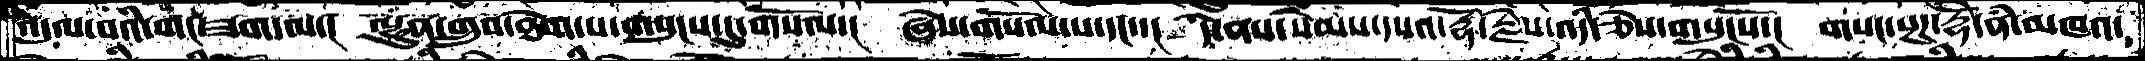འདུལ་བའི་གང་ཟག་ལ་།  ལྷུན་གྲུབ་ཐེག་པ་གསུངས་དུ་གསོལ་།  ཞེས་གསོལ་པ་དང་།  དེ་ནས་སེམས་དཔའ་རྡོ་རྗེས་འདི་ཅེས་གསུངསསོ་།  གསང་སྔཌ་རྡོེ་ནཾ་མཁའ་
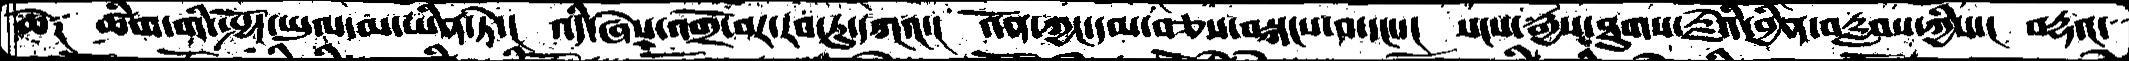ཆེ༑  ཚིག་གི་སྤྱོད་ཡུལ་མ་ཡིན་ཏེ་།  འདི་ཞེས་འགྲོ་བར་རབ་ཏུ་དཀའ་།  འོན་ཀྱང་དམ་བཅས་བསྐངས་པ་དང་་།  སངས་རྒྱས་ཐུགས་རྗེའི་བྱིན་བརླབས་ཀྱིས་།  བརྡའ་
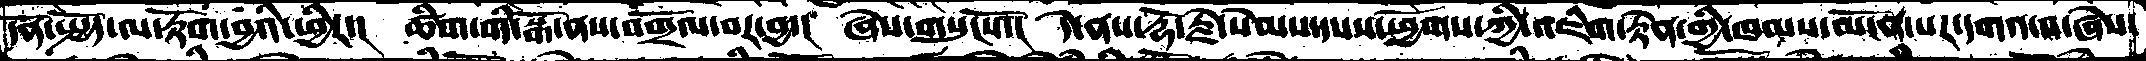དོན་སྤྱོད་ལ་རྟོག་བྱའི་ཕྱིར་།  ཚིག་གི་སྒོ་ནས་བགྲོལ་བར་བྱ་།  ཞེས་གསུངསོ་།  དེ་ནས་རྡོ་རྗེ་སེམས་དཔས་ཕྱོགས་ཀྱི་འཇིག་རྟེན་གྱི་ཁམས་མངོན་པར་དགའ་བ་ཞེས་
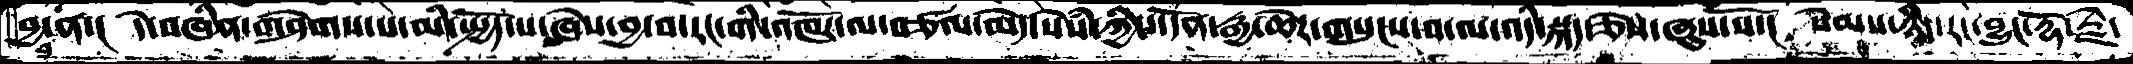བྱ་ན་།  དེ་བཞིན་གཤེགས་པ་མི་སྤྱོད་པ་ཞེས་བྱ་བ་རང་གི་འཁོར་ལ་བཙལ་མེད་སེཾམ་ཀྱིས་དོན་རྒྱ་ཆེར་གསུངས་བ་ལ་འདི་སྐད་ཅེས་ཞུས་སོ་།  སེམས་ཉིད་རང་བྱུང་རྡོ་རྗེ་
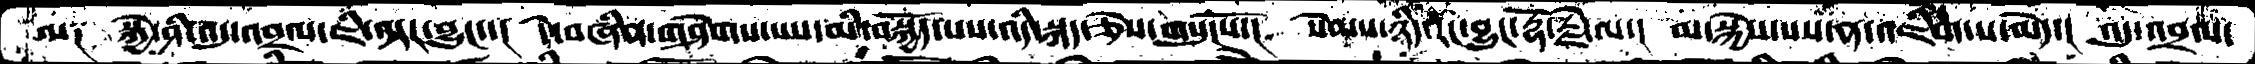ལ༑  སྐྱེ་ཤི་འདུ་འབྲལ་ཇི་ལྟར་འབྱུང་་།  དེ་བཞིན་གཤེགས་པས་མི་བསྐྱོད་པས་འདི་སྐད་ཅེས་གསུངསོ་།  སེམས་ཉིད་རང་བྱུང་རྡོ་རྗེ་ལ་།  མ་སྐྱེས་པས་ན་འཇིག་པ་མེད་།  འདུ་འབྲལ་
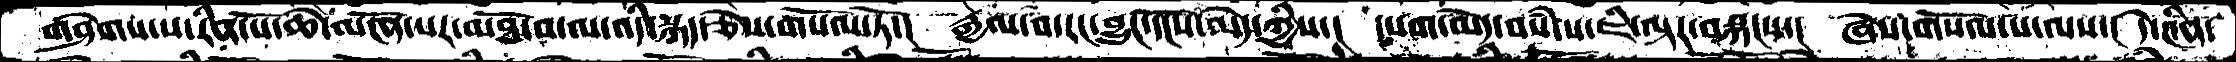གཤེགས་པ་རིན་པོ་ཆེ་མངོན་པར་མཐོ་བ་ལ་འདི་སྐད་ཅེས་གསོལ་ཏོ་།  རྒྱལ་བ་རང་བྱུང་དངོས་མེད་ཀྱིས་།  དཔག་མེད་བསཾ་པ་ཇི་ལྟར་བསྐངས་།  ཞེས་གསོལ་པ་ལས་།  དེ་༤ིན་
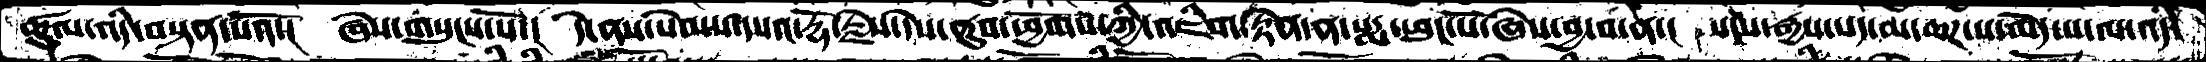ཚུལ་འདི་བསྟན་པའོ་།  ཞེས་གསུངས་སོ་།  དེ་ནས་སེམས་དཔའ་རྡོ་རྗེས་དེས་ནུབ་ཕྱོགས་ཀྱི་འཇིག་རྟེན་ན་པདྨ་ཕུང་པོ་ཞེས་བྱ་བ་ན་།  སངས་རྒྱས་པད་མ་ཆཌ་པ་མེད་པ་ལ་འདི་
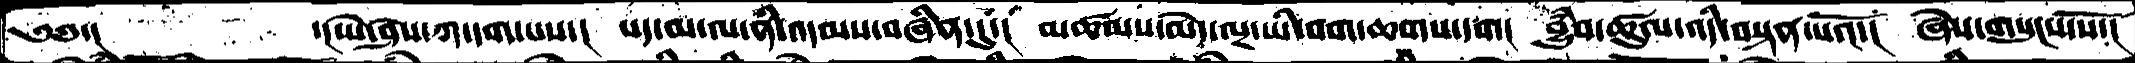༄༅་།       ་།ཡེ་ཤེས་ཀ་དག་པས་།  པད་མ་ལ་ནི་འདམས་བཞིན་དུ་།  མཚམས་མེད་ལྔ་ཡི་བག་ཆགས་དག།  བྱུཾབ་ཚུལ་འདི་བསྟན་པའོ་།  ཞེས་གསུངས་སོ་།
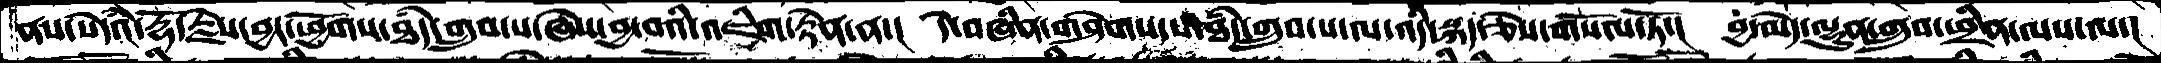ནས་སེདཾའ་རྡོ་རྗེ་བྱང་ཕྱོགས་ཐཾད་གྲུབ་པ་ཞེས་བྱ་བའི་འཇིག་རྟེན་ན་།  དེ་བཞིན་གཤེགས་པ་ཐཾད་གྲུབ་པ་ལ་འདི་སྐད་ཅེས་གསོལ་ཏོ་།  བྱ་མེད་ལྷུན་གྲུབ་ཕྲིན་ལས་ལ་།
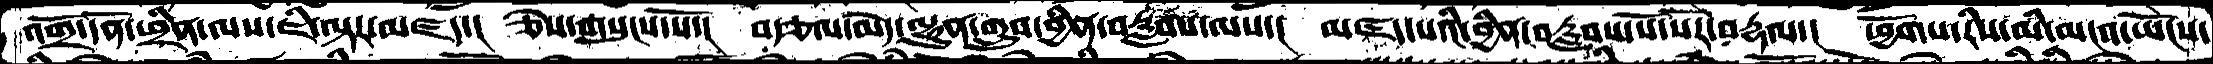འགྲོ་དོན་ཕྲིན་ལས་ཇི་ལྟར་མཛད་།  ཅེས་གསུངས་སོ་།  བརྩལ་མེད་ལྷུན་གྲུབ་བྱིན་བརླབས་ལས་།  མཛད་པའི་བྱིན་བརླབས་སོ་སོར་བརྡལ་།  ཕྱོགས་རིས་མི་མངའ་ཡོངས་
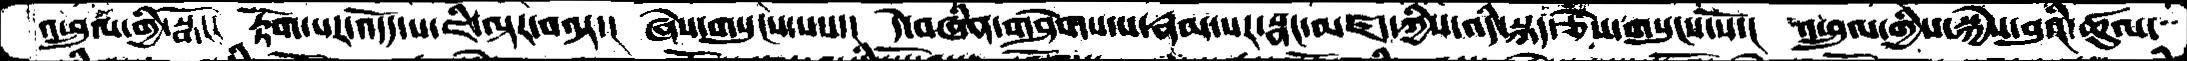འཕྲུལ་གྱི་སྒོ་།  རྟོག་པར་འདོད་པ་ཇི་ལྟར་བལྟ་།   ཞེས་གསུངས་པས་།  དེ་བཞིན་གཤེགས་པ་རྣམ་པར་སྣང་མཛད་ཀྱིས་འདི་སྐད་ཅེས་གསུངས་སོ་།   འཕྲུལ་གྱིས་སྐྱེས་བུའི་ཚུལ་
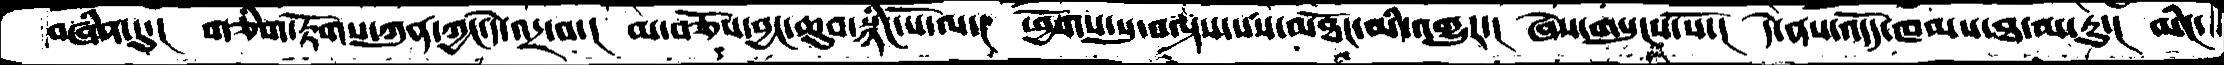བཞིན་དུ་།   གཅིག་རྟོགས་ཀུན་ཀྱང་དེ་འདྲ་བ་།  མ་བཅོས་བྱང་ཆུབ་སྙིང་པོ་ལ་།  ཕྱོགས་སུ་བལྟས་པས་མཐོང་མི་འགྱུར་།  ཞེས་གསུངས་སོ་།  དེ་ནས་འདོད་ཁམས་ཐ་མ་རུ་།  མིང་
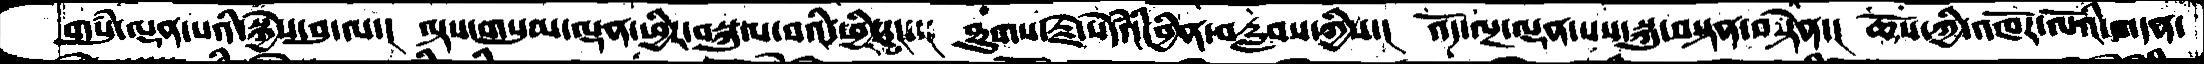གསུཾ་ལྡན་པའི་སྐྱེས་བུ་ལ་།   ལྟས་གསུམ་ལྡན་ཕྱིར་བསྐུལ་བའི་ཕྱིར་།  ཐུགས་རྗེ་སེདཾའི་བྱིན་བརླབས་ཀྱིས་།  འོད་ལྔ་ལྡན་པས་སྐུ་བསྟན་བརྟེན་།  ཆོས་ཀྱི་འཁོར་ལོའི་གདན་
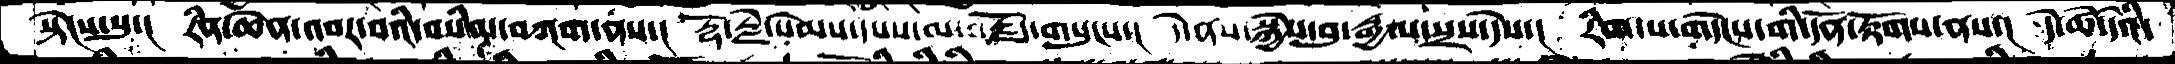སྟེངས་སུ་།  རིན་ཆེན་འབར་བའི་བསིལ་བཀག་ནས་།  རྡོ་རྗེ་སེམས་དཔས་མ་བརྗོད་གསུངས་།  དེ་ནས་སྐྱེས་བུ་རྒྱལ་སྲས་དེས་།  རིག་པ་གདེངས་གི་དོན་རྟོགས་ནས་།  དེ་ཚེ་དེའི་
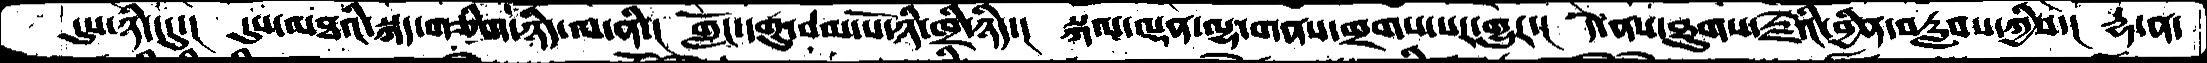དུས་ཉིད་དུ་།   དུས་མཐའི་སྐད་གཅིག་ཉིད་ལ་ནི་།  གློང་དགུ་བམ་པོ་ཉི་ཁྲི་ཉིད་།  སྐལ་ལྡན་ལྷ་གནས་གྲགས་པར་གྱུར་།  དེ་ནས་ཐུགས་རྗེའི་བྱིན་བརླབས་ཀྱིས་།  དྷ་ན་
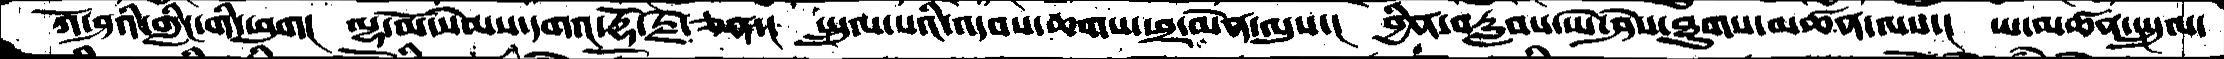ཀོ་ཤའི་གླིང་གི་ཕུག།  ལྷ་མོ་སེམས་དགའ་རྡོ་རྗེ་ཅན་།  སྤྲུལ་པའི་འདབས་ཆགས་ཕྲ་མེན་ལུས་།  བྱིན་བརླབས་ཡེ་ཤེས་ཐུགས་མཚན་ལས་།  ཡ་མཚན་སྤྲུལ་
